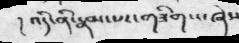། འདི་ནི་རྣམ་པར་གཟིགས་ཞེས
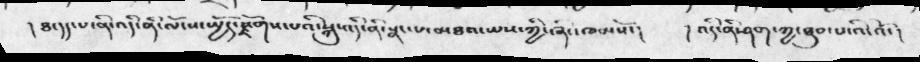། ཐ་དད་པ་ནི་འདི་ནི་ལོངས་སྤྱོད་རྫོགས་པའི་སྐུ་འདི་ནི་སྣང་པ་མཐའ་ཡས་ཀྱི་ཞིང་ཁམསོ་།  །འདི་ནི་ཤག་ཀྱ་ཐུབ་པ་འི་འོ་།
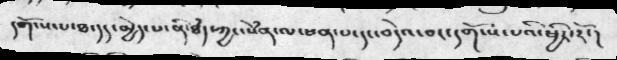དགོངས་པ་ཐ་དད་མྱེད་པ་ནི་ཐཾད་ཀྱང་སེཾན་ལ་ཕན་པ་དང་བདེའ་བར་དགོངས་པའི་ཕྱིར་རོ་།
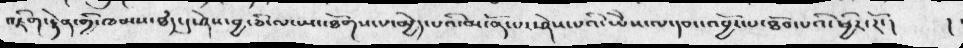འཇིག་རྟེན་གྱི་ཁམས་ཐཾད་དུ་ཤེས་བྱ་ཅི་ལ་ཡང་ཐོགས་པ་མྱེད་པའི་མངོན་པར་ཤེས་པའི་ཡཻས་ལ་དབང་འབྱོར་པ་ཐོབ་པའི་ཕྱིར་རོ་། །
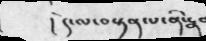། དེ་ལ་བསྟན་པ་ནི་རྣ
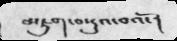མཇུག་བསྡུའ་བའོ་།
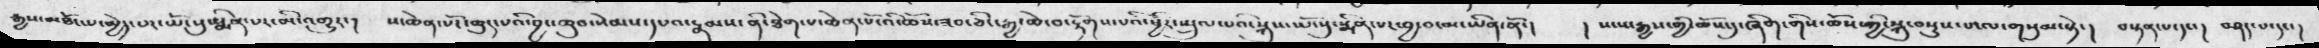རྒྱས་མཐོང་པ་མྱེད་པར་ཡོངསུ་སྨིན་པར་མི་འགྱུར་།  ས་ཆེན་པོར་ཆུད་པའི་བྱང་ཆུབ་སེམས་དཔའ་རྣམས་ནི་ཐེག་པ་ཆེན་པོ་འི་ཆོས་ཟབ་ཅིང་རྒྱ་ཆེ་བ་རྟོགས་པའི་ཕྱིར་སྤྲུལ་པའི་སྐུས་ཡོངསུ་སྨིན་པར་བྱ་བ་མ་ཡིན་ནོ་།  ། སངས་རྒྱས་ཀྱི་ཆོས་དུ་ཞིག་གིས་ཆོས་ཀྱི་སྐུ་བསྡུས་པ་་གསུམ་སྟེ་།  བསྟན་པ་དང་།  བཤད་པ་དང་།
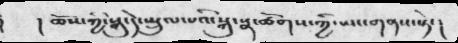། ཆོས་ཀྱི་སྐུ་དེ་སྤྲུལ་པའི་སྐུ་སྣ་ཚོགས་ཀྱི་ཡང་གནས་སྟེ་།
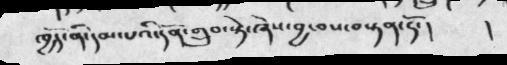ཁྱོད་ནི་དམ་པའི་དོན་གྲུབ་སྟེ་ཞེས་བྱ་བས་བསྟན་དོ་།     །
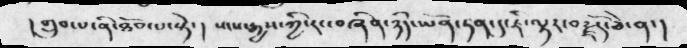།གྲུབ་པ་ནི་ཐོབ་པ་སྟེ་།  སངས་རྒྱས་ཀྱི་རང་བཞིན་ཉིད་ཡོན་ཏན་དུ་ཇི་ལྟར་བརྗོད་ཅེ་ན་།
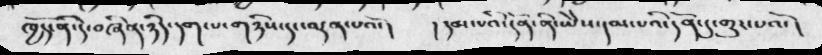ཁྱོད་ནི་དེ་བཞིན་ཉིད་དག་པ་གཉིས་དང་བརྟན་པའོ་།  ། དམ་པའི་དོན་ནི་ཡཻས་དམ་པའི་དོན་དུ་གྱུར་པའོ་།
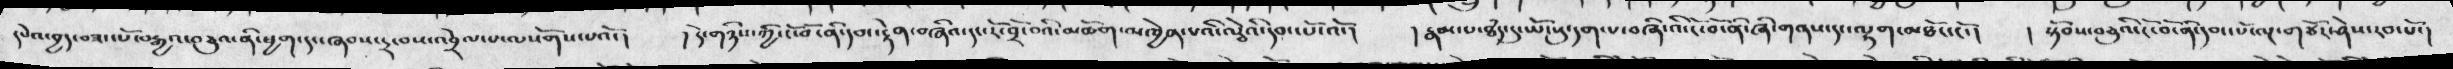དཔེའ་བྱད་བཟང་པོ་བརྒྱའ་བཅུའ་ནི་ཕྱག་དང་ཞབས་དྲ་བས་འབྲེལ་པ་ལསོགས་པའོ་།  །དེ་གཉིས་ཀྱི་ངོ་བོ་ནི་དབང་རྟེན་བཞིའ་དང་རོ་བྲོ་བའི་མཆོག་མཁྱེན་པའི་ལྕེའི་དབང་པོ་འོ་།  །རྣམ་པ་ཐཾད་དུ་ཡོངསུ་དག་པ་བཞི་འི་ངོ་བོ་ནི་ཞི་གནས་དང་ལྷག་མཐོང་ངོ་།  །སྟོབས་བཅུའི་ངོ་བོ་ནི་དབང་པོ་ལྔ་གཙོར་ཤེས་རབ་པོ་།
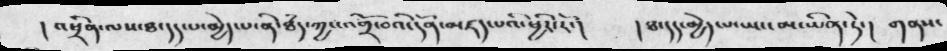།འཕྲིན་ལས་ཐ་དད་པ་མྱེད་པ་ནི་ཐཾད་ཀྱང་འགྲོ་བའི་དོན་མཛད་པའི་ཕྱིར་རོ་།  །ཐ་དད་མྱེད་པ་ཡང་མ་ཡིན་ཏེ་།  གནས་
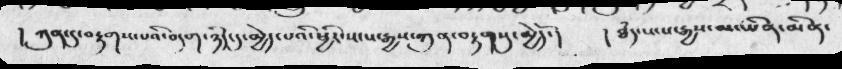། ཀུན་དུ་བརྟགས་པའི་བདག་ཉིད་དུ་མྱེད་པའི་ཕྱིར་སངས་རྒྱས་ཀུན་བརྟགསུ་མྱེདོ་།   ། ཐཾད་སངས་རྒྱས་མ་ཡིན་མིན་
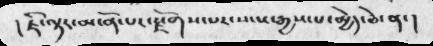། ཇི་ལྟར་མངོན་པར་རྫོགས་པར་སངས་རྒྱས་པ་མྱེད་ཅེ་ན་།
